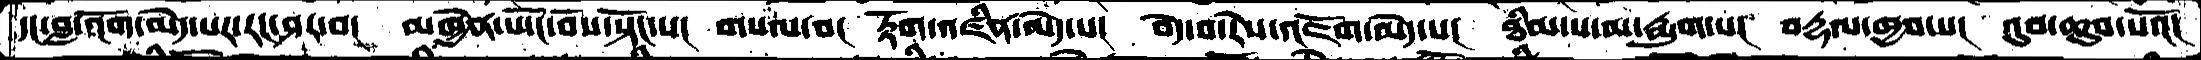དང་བླ་འོག་མེད་པར་རང་ཤར་བ།  མཁྱེན་ཡོང་བོས་སྟོང་པ།  གསལ་བ།  རྟོག་འཛིན་མེད་པ།  བདེ་བ་རེས་འཇོག་མེད་པ།  ཐིམ་པ་མ་རྨུག་པ།  བརྡལ་ཁྱབ་པ།  འུབ་ཆུབ་པའོ།
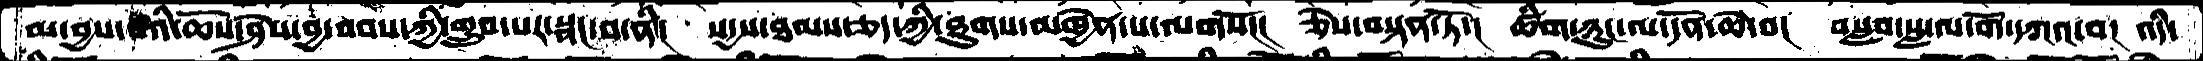མ་བྱས་པའི་ཆོས་ཤེས་བྱ་བབས་ཀྱི་གྲུབ་པར་སྣང་བ་ནི། སདྱས་ཐམས་ཅད་ཀྱི་ཐུགས་མཁྱེན་པ་ལགསོ།། ཅེས་བསྟན་ཏོ་། ཚིག་ཉུང་ལ་དོན་ཆེ་བ། བསླབ་སླ་ལ་གོ་དཀའ་བ། འདི་
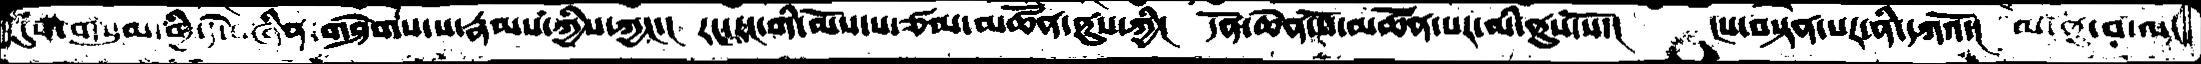དུས་གསུམ་གྱི་དེ་བཞིན་གཤེགས་པ་རྣམས་ཀྱིས་ཀྱང་།  རང་རང་གི་མོས་པ་ཙམ་མཚོན་ནུས་ཀྱི།  དོན་ཆེན་པོ་མཚོན་པར་མི་ནུས་སོ་།  ངས་བསྟན་པར་ནི་དཀའོ་།  མ་ནུ་པ་ལ།
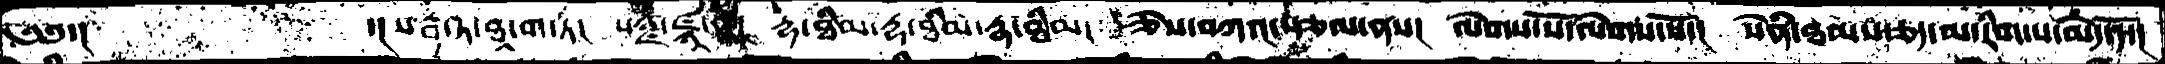༄༅་།     ་།སརྦ་ཏ་ཐཱ་ག་ཏ། སཉྫ་ཛཱ་ཏྲི། དྷ་ཐིམ་དྷ་ཐིམ་དྷ་ཐིམ། ཅེས་བཀའ་སྩལ་ནས། ལེགས་སོ་ལེགས་སོ་། སེཾན་ཐམས་ཅད་མ་རིག་པ་མེད་དོ་།
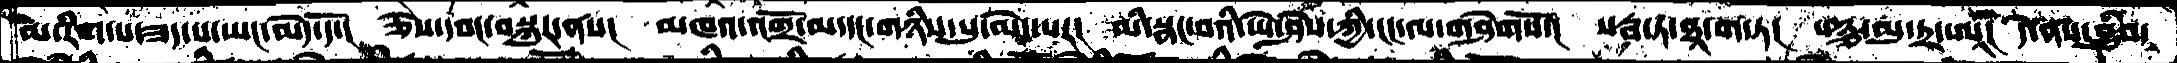མ་རིག་པ་ཟད་པ་ཡང་མེད་དོ་།  ཅེས་དབང་བསྐུར་ནས། མཁའ་འགྲོ་མ་དང་གཉིས་སུ་མེད་པར།  མི་སྣང་བའི་ཡེ་ཤེས་ཀྱི་ངང་ལ་གཤེགསོ་།  སརྦ་ཏ་ཐཱ་ག་ཏ།  མཉྩ་མུ་ཏྲ་ཨཱ། དེ་ནས་བྱུཾབ་
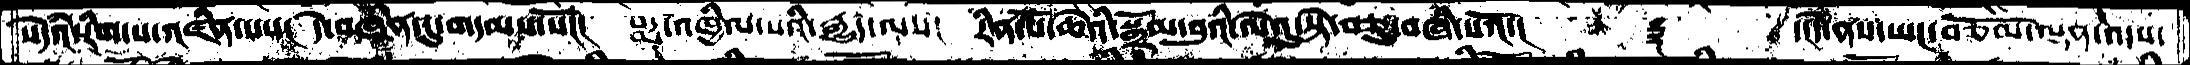སེདཾའི་རིག་པ་འཛིན་པས།  དེ་བཞིན་དུ་གདམས་སོང།  པདྨ་འཁྱིལ་པའི་རྒྱུད་ལས།  རིན་པོ་ཆེའི་སྒྲོམ་བུའི་ལེའུ་སྟེ་བཅུ་བཞི་པའོ་།    ༈    ་།དེ་ནས་ཡང་བཅོམ་ལྡན་འདས་
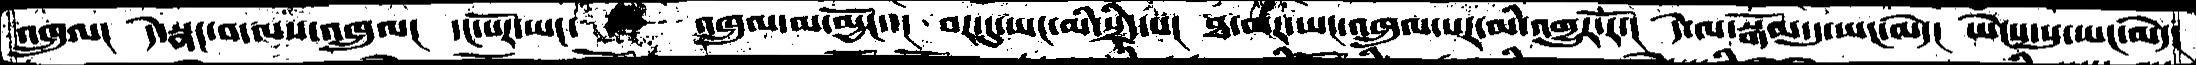འཁྲུལ།    དེ་སྣང་བ་ལས་འཁྲུལ།  དང་པོར་ཡང་    འཁྲུལ་མ་མྱོང་་།  བར་དུ་ཡང་མི་སྲིད་པ།  ཐ་མར་ཡང་འཁྲུལ་པར་མི་འགྱུར་རོ་།  དེ་ལ་སྒོམ་དུ་ཡང་མེད།  ཡོངས་སུ་ཡང་མེད།
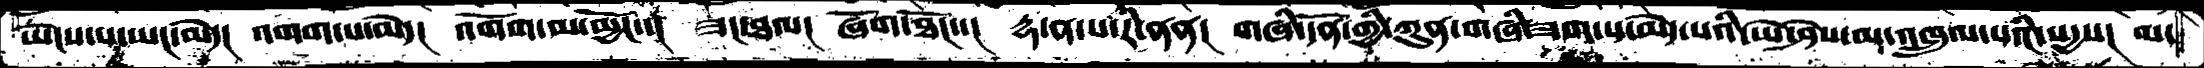ཡེངས་པ་ཡང་མེད།  འགག་པ་མེད།   འགོག་མ་མྱོང་་།  ཟང་ཐལ།  ཞོག་ཐོང་་།  དྷ་ན་པ་རི་ནན།  གཞི་དོན་གྱི་ཀུན་གཞི་ཟག་པ་མེད་པའི་ཡེ་ཤེས་མ་འཁྲུལ་པའི་སདྱས།  མ་
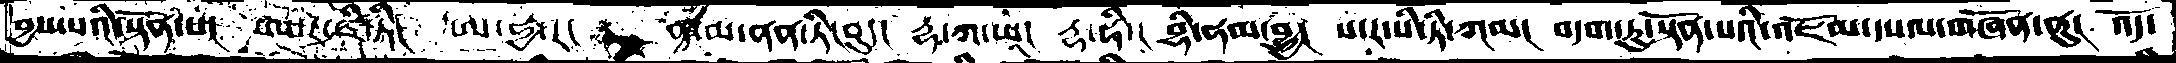བྱས་པའི་སྟོན་པ།  ཨ་ར་ཛི་ཏི།  ཨ་ཧྱ་ར། ན་མ་ནན་ཏི་བུད།  དྷ་ཀ་ཡཱ།  རྡ་ཧི་།  བྷི་ནམ་བྷྱ།  ས་ར་སི་ཏི་ཀམ།  བདག་ཏུ་སྟོན་པའི་འཇོམ་དཔལ་གཞོན་ནུ།  འོད་
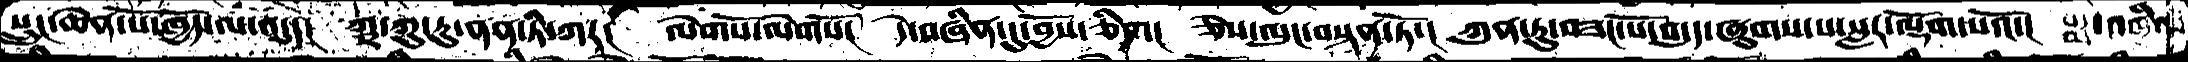སྲུང་ཆེན་པོ་ཁྱོད་ལ་འདུད།  ཀྵ་ཀུ་ཏུ་ནན་ཏི་ཀར།  ལེགསོ་ལེགསོ།  དེ་བཞིན་དུ་བྱོས་ཅིག།  ཅེས་ལུང་བསྟན་ཏོ་།  ཀུན་ཏུ་བཟང་པོ་བདུད་ཞུགས་པ་སླར་ལྡོག་པའོ་།  པདྨ་འཁྱིལ
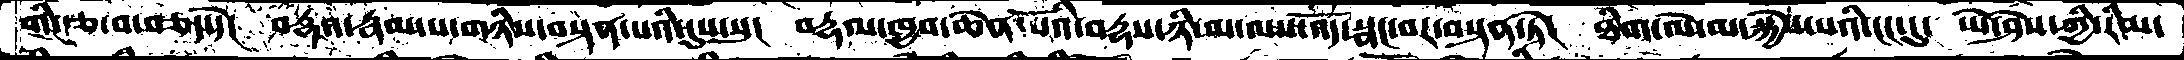གི་རྩ་བ་བཅད་དེ།  བརྡའ་རྣམ་པ་གཉིས་བསྟན་པའི་དུས་སུ།  བརྡལ་ཁྱབ་ཆེན་པོའི་བརྡས་ཉི་མ་ལས་འོད་སྣང་བར་བསྟན་ཏེ།  ཐིག་ལེ་མ་སྐྱེས་པའི་ངང་དུ། ཡེ་ཤེས་ཀྱི་རིམ་
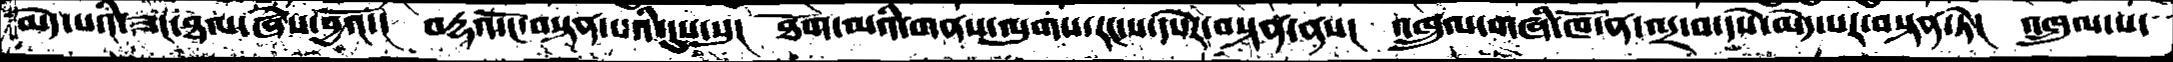མེད་པའི་ཟང་ཐལ་ཞེས་བྱའོ་།  བརྡའ་ངོ་བསྟན་པའི་དུས་སུ།  ཐོག་མའི་གནས་ལུགས་རང་ས་དཔེར་བསྟན་ནས།  འཁྲུལ་གཞི་ཁོ་ན་འདྲ་བ་དཔེ་མེད་པར་བསྟན་ཏེ།  འཁྲུལ་པ་
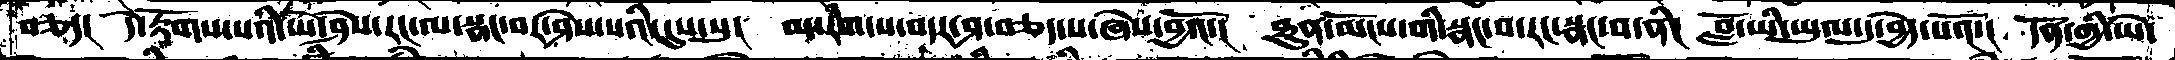བཅད།  དེ་རྟོགས་པའི་ཡེ་ཤེས་རང་ལ་སྣང་བར་ཤེས་པའི་དུས་སུ།  མ་རིག་པ་བདར་ཤ་བཅད་པ་ཞེས་བྱའོ་།  ཐུན་མོངས་གི་སྣང་བ་རང་སྣང་བ་ནི།  བློ་ཡི་ཡུལ་དུ་བྱེད་པའོ་།  དོན་གྱི་ཡེ་
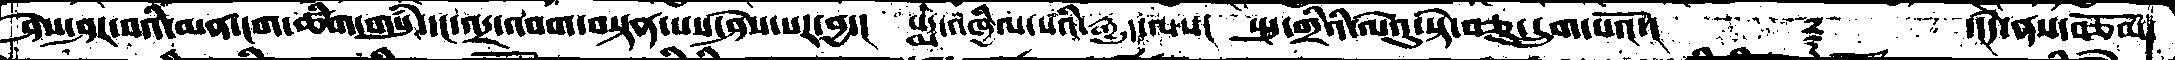ཤེས་ཤར་བའི་མན་ངག་ཚིག་གསུཾ་དང་འདྲ་འབག་བསྟན་པས་ཤེས་པར་བྱ་། པདྨ་འཁྱིལ་པའི་རྒྱུད་ལས། སྤུ་གྲིའི་ལེའུ་སྟེ་བཅུ་དྲུག་པའོ་།    ༈   ་།དེ་ནས་བཅོམ
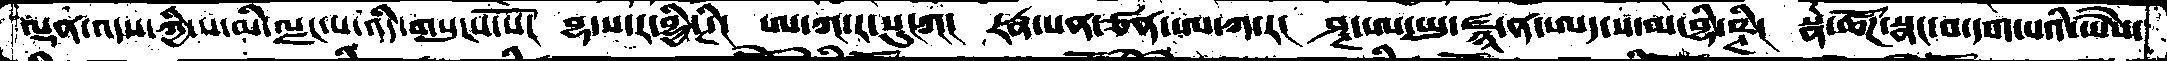ལྡན་འདས་ཀྱི་ས་མི་ལྗང་པ་འདི་གསུངས་སོ། བྷ་ས་ར་བྷྱི་ཊི། ཨ་ཀ་ར་སུ་ཀ། རརྣ་སན་ཙན་ཨ་ཀ་ར། ཤྚ་ཨ་ཡུ་ཛྙཱ་ན་ཨད་ས་མ་བྷི་ཥྚི། སྣ་ཚོཌ་སྣང་བ་དག་པའི་ཡཻས་
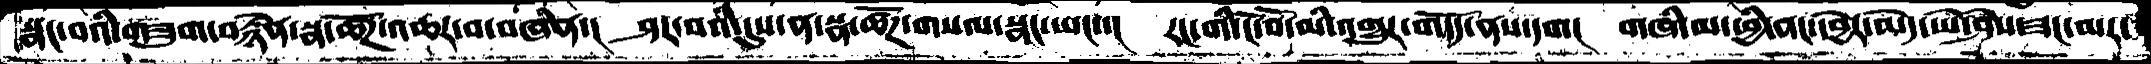སྣང་བའི་གཟུག་བརྙེན་སྣ་ཚོཌ་འཆར་བ་བཞིན་།  ཤར་བའི་དུས་ན་སྣ་ཚོཌ་གསལ་སྣང་ཡང་་།  རང་གི་ངོ་བོ་མི་འགྱུར་གདོད་ནས་དག།  གཞི་མ་ཕྱི་ནང་དབྱེར་མེད་ཡེ་ཤེས་ཟང་མར་
